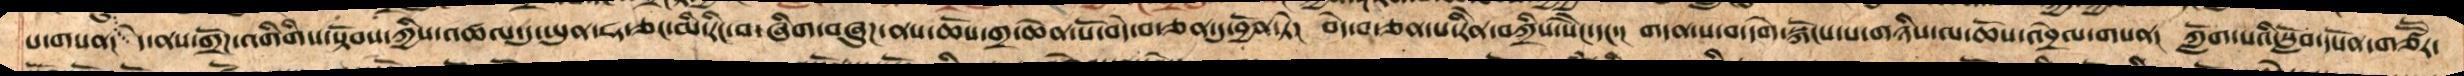པ་གསན།  དེ་ནས་གྲོཌ་འགིགིས་སྟོབས་ཀྱིས་འཚལ་དུ་ཡུན་ཧ་ཅང་མི་རིང་བ་ཞིག་བཞུཌ་ནས་ཆོས་གྲ་ཆེན་པོ་བདེ་བ་ཅན་དུ་བྱོན་ཏེ།  བདེ་བ་ཅན་པ་རིནེ་བཀྲིས་སེངེ་དང་།  གདན་ས་བ་དགེ་སྐོངས་པ་གཉིས་ལ་ཆོས་འབྲེལ་གསན།  ཀློག་པའི་སློབ་དཔོན་གཙཽར་
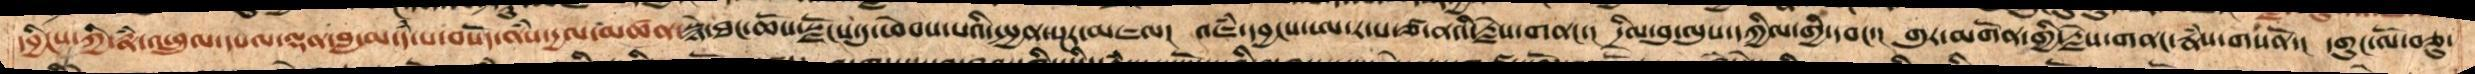དབྱིངས་ཀྱི་རྣཾ་འཕྲུལ་དཔལ་ལྡན་བླ་མ་དཾ་པ་བསོད་ནཾས་དྱལ་མཚན་སྙེ་ཐང་ཆོས་སྫོངས་དུ་ཕེབས་པའི་སྤྱན་སྔར་མཇལ།  འཇཾ་དབྱངས་ཨ་ར་པ་ཙ་ནའི་རྗེས་གནང་།  དྲིལ་བུ་ལུས་དཀྱིལ་གྱི་དབང་།  གུར་མགོན་གྱི་རྗེས་གནང་རྣཾས་གསནོ།  དགུང་ལོ་བཅུ་
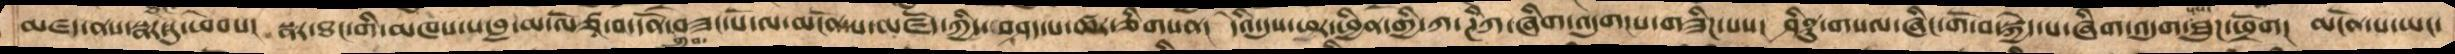མཛད་ནས་སྣར་ཐང་དུ་ཕེབས། སྣར་ཐང་གི་མཁས་པ་བླ་མ་ལོཙཱ་བ་དོན་གྲུབ་བཟང་པོ་ལ་མངོན་པ་མཛོད་ཀྱི་བཤད་པ་ཚར་ཅིག་གསན། དེའི་དུས་ཕར་ཕྱིན་གྱི་ཀ་ཌིཀ་ཞིག་འདུག་པ་གཟིཌ་པས། ཤིནྟུ་གསལ་ཞིང་གོ་བ་སྐྱེད་པ་ཞིག་འདུག་པས་ཐུཌ་ཕྲོག། མངོན་པ་ཡང་
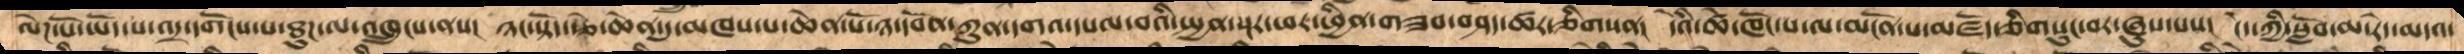ལེཌ་པོ་ཡོད་པ་འདྲ་དགོངས་པ་ཐུཌ་ལ་འཁྲུངས་ནས།  ཉང་སྟོད་རྩེ་ཆེན་དུ་མཁས་པ་ཆེན་པོ་ཉ་དབོན་ཀུན་དགའ་དཔལ་བའི་སྤྱན་སྔར་ཕར་བྱིན་གཟབ་བཤད་ཚར་ཅིགསན།  དེའི་ཚེ་ཁོང་པ་ལ་མངོན་པ་མཛོད་ཅིགསུང་བར་ཞུས་པས།  ངེད་ཀྱི་སློབ་མ་རེད་མདའ་
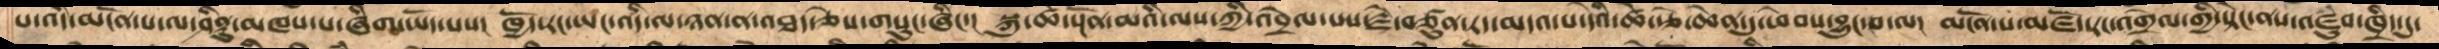པ་འདི་མངོན་པ་ལ་ཤིནུ་མཁས་པ་ཞིག་ཡོད་པས།  ཁྱེད་རང་ཡང་འདི་ལ་ཉན་ན་འཐད་ཅེས་གསུང་ཞིང་།  སྐུ་ཚེ་སྔོན་མའི་ལས་ཀྱི་འབྲེལ་པས་རྗེ་བཙུན་རད་མདའ་པ་དེའི་ཚེ་་རྩེ་ཆེན་དུ་ཕེབས་བྱུང་བ་ལ།  མངོན་པ་མཛོད་རང་འགྲེལ་གྱི་སྟེང་ནས་མཛུབ་ཁྲིད་དུ་
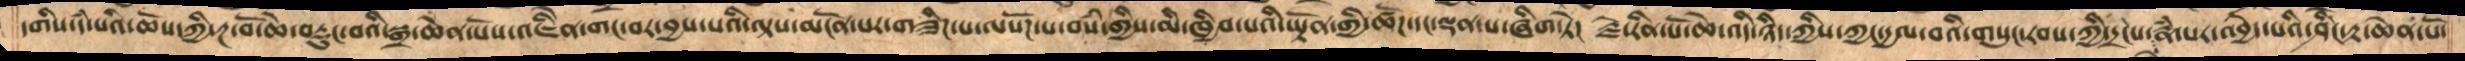དགིས་དཾ་པའི་ཆོས་ཀྱི་རྔ་བོ་ཆེ་བརྡུང་བའི་སྒྲ་ཆེན་པོས་འཇིནེ་གང་བར་བྱས་པའི་ལྟས་མངོན་པར་གཟིཌ་པ་ལསོཌ་པ་བསཾ་གྱིས་མི་ཁྱབ་པའི་ཡྟོན་གྱི་ཚོཌ་དང་ལྡན་པ་ཞིག་ཏེ།  རྗེ་རིན་པོ་ཆེ་འདི་ཉིད་ཀྱིས་ཀྱང་དྱལ་བའི་གསུང་རབས་ཀྱི་དྲངེས་རྣཾ་པར་འབྱེད་པའི་ཤིང་རྟ་ཆེན་པོ་
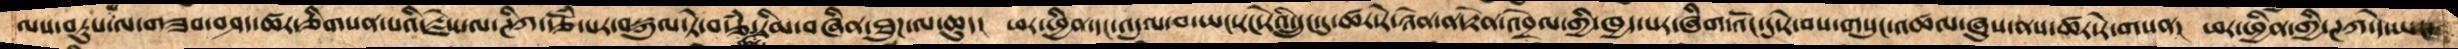ལས་བཏུས་ལ་གཟབ་བཤད་ཚར་ཅིགསན་པའི་རྗེས་ལ་ཊིཀ་རྩོཾ་པར་བསྐུལ་ཏེ་བརྩཾ་རིམ་བཞིན་ཐུཌ་ལ་ཆུད།  ཕར་ཕྱིན་དང་འདུལ་བ་ཡང་རང་རེའི་དྲུང་དུ་ཚར་རེ་ཉེན་ན་རྟེན་འབྲེལ་གྱི་ཁྱད་པར་ཞིག་འོང་དུ་རེ་བས་གསུང་འཚལ་ཞུས་ནས་ཚར་རེ་གསན།  ཕར་ཕྱིན་གྱི་ཊཀ་དེ་ཡང་
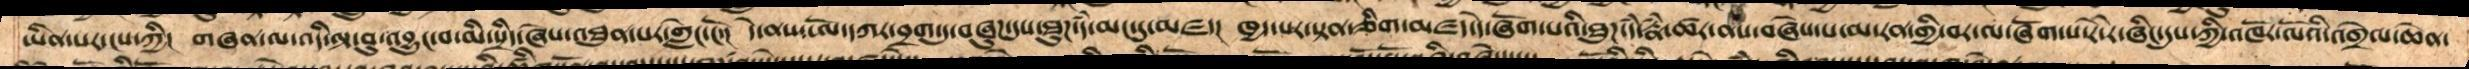ཡིན་པར་ངས་ཀྱི།   གཞན་ལ་འདི་ལྟ་བུ་འབྱུང་བ་མི་སྲིད་ཞེས་འཐུན་པར་གླེང་ངོ་།  དེ་ནས་ཨོ་དཀར་བྲག་དུ་བཞུཌ་དུས་ཐུཌ་དཾ་མང་དུ་མཛད།  ཁྱད་པར་སྟན་ཅིག་མཛད་དེ་ཞོག་པའི་ཐུཌ་དཾ་རྣཾ་ཚར་ནས་བཞེས་པ་མ་རན་གྱི་བར་ལ་ཞོག་པ་རེ་རེ་ཞིང་དུས་ཀྱི་འཁོར་ལོའི་འགྲེལ་ཆེན་
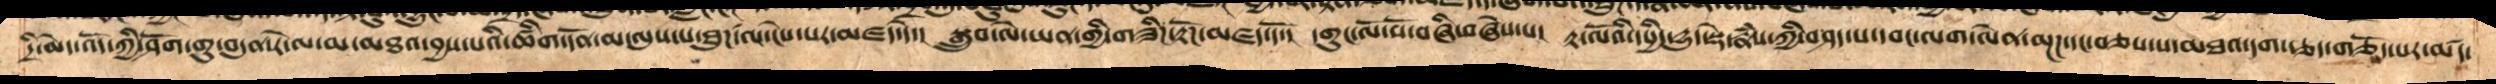དྲི་མེད་འོད་ཀྱི་ཤོག་གུ་བདུན་རེ་ལ་མ་མཐའ་བྱས་པའི་ཚིག་དོན་མ་ལུས་པ་ཐུཌ་ལ་ངེས་པར་མཛད་དེ།  སྒྲུབ་ལེ་ཡན་གྱི་གཟིཌ་རྟོཌ་མཛད་དོ་།  དགུང་ལོ་སོ་བཞི་བཞེས་པ།  རྟ་ལོའི་དཔྱིད་དྱུད་སྡེ་རྣཾས་ཀྱི་བཤད་པ་དབང་ལག་ལེན་མྔཌ་དང་བཅས་པ་མཐའ་དག་རྩད་གཅོད་པར་མཛད་
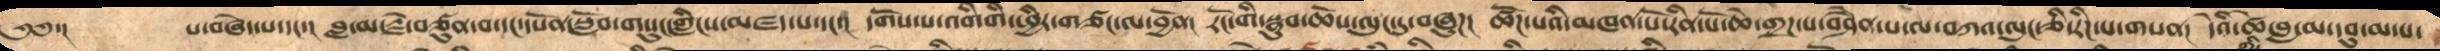༄༅་།     པ་བཞེད་པ་དང་།  བླ་མ་རྗེ་བཙུན་བ་དང་དཔོན་སློབ་གསུང་གླིངས་མཛད་པ་དང་།  དགོས་པ་འགིགི་ཕྱིར་གཙང་ལ་བྱོན།  རོང་གི་སྣུབ་ཆོས་ལུང་དུ་བཞུཌ།  ཚོཌ་པའི་མཁན་པོ་རིན་པོ་ཆེ་གྲཌ་པ་བཤཻན་པ་ལ་བཀའ་ལུང་ཅི་རིཌ་པ་གསན།  དེའི་ཚེ་བླ་མ་དབུ་མ་པ་
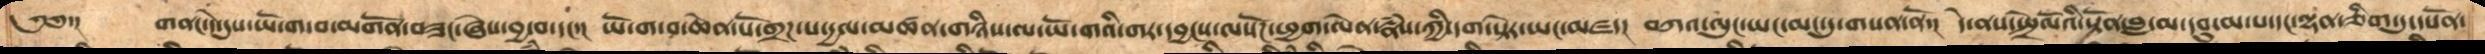༄༅་།    གནང་དེ་དུས་ཡོ་ག་བ་མགོན་བཟང་ཞེས་བྱ་བ་དང་།  ཡོ་ག་བ་ཆེན་པོ་གྲཌ་པ་དྱལ་མཚན་གཉིས་ལ་ཡོ་གའི་གར་དབྱངས་ལསོཌ་ཕྱག་ལེན་རྣཾས་ཀྱི་དག་སྟེར་ཡང་མཛད།  བཀའ་ལུང་ཡང་མང་དུ་གསན་ནོ་།་ དེ་ནས་སྤྲེལོའི་སྟོན་བླ་མ་དབུ་མ་པ་དང་ལྷན་ཅིག་དུ་དཔོན་
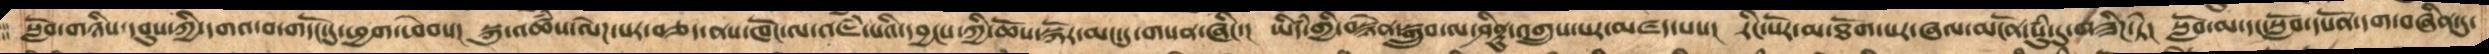སློོབ་གཉིས་དབུས་ཀྱི་དགའ་བ་གདོང་དུ་ཕྱག་ཕེབས།  སྐུ་འཚཾས་ལེཌ་པར་བཅད་ནས་ཁོང་ལ་འཇཾ་པའི་དབྱངས་ཀྱི་ཆོས་སྐོར་མང་དུ་གསན་ཞིང་།  ཡི་དཾ་གྱི་བསྙེན་སྒྲུབ་ལ་ཤིནྟུ་འགྲུས་པར་མཛད་པས།  རིང་པོར་མ་ཐོག་པར་ཞལ་མངོན་སུཾ་དུ་གཟིཌ་ཏེ།  སློབ་མ་དང་སློབ་དཔོན་དག་བཞིན་དུ་
